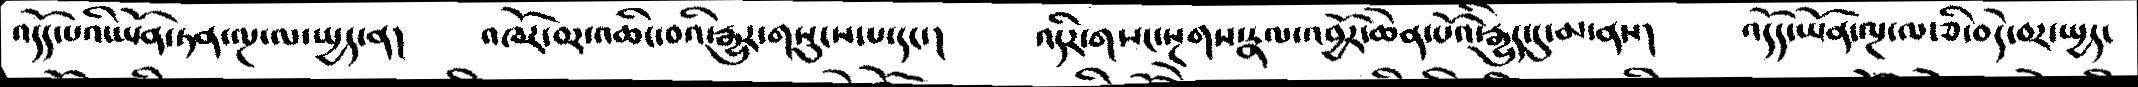འདོད་པའི་ཡོན་ཏན་ལྔ་ལ་སྤྱད་ན།   འཁོར་བར་འཆིང་བའི་རྒྱུར་གསུངས་པ་དང་།   འདིར་གསང་སྔགས་རྣལ་འབྱོར་ཆེན་པོའི་རྒྱུད་དུ་མ་ནས།   འདོད་ཡོན་ལྔ་ལ་ཅི་བདེ་བར་སྤྱད་
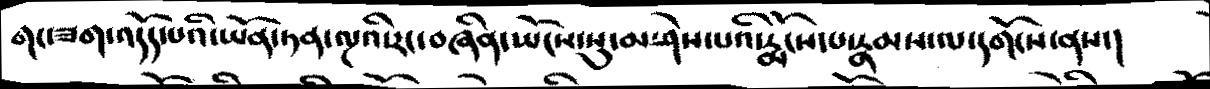གང་ཟག་འདོད་པའི་ཡོན་ཏན་ལྔའི་རང་བཞིན་ཡོངས་སུ་མ་ཤེས་པའི་རྨོངས་པ་རྣམས་ལ་དགོངས་ནས་།
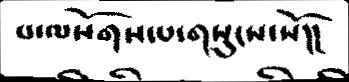པ་ལསོགས་པ་གསུངས་སོ།།
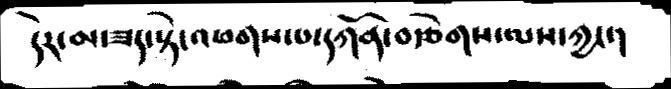དེར་མ་ཟད་སྟེ་འཕགས་པ་དཀོན་བརྩེགས་ལས་ཀྱང་།
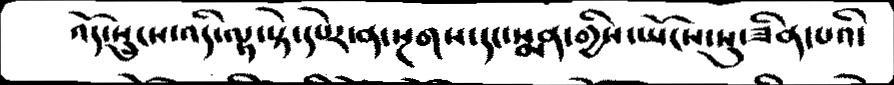འོད་སྲུངས་འདི་ལྟ་སྟེ་དཔེར་ན་སྔགས་དང་སྨན་གྱིས་ཡོངས་སུ་ཟིན་པའི་
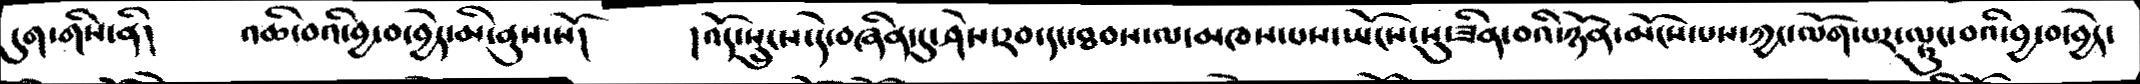དུག་གིས་ནི།   འཆི་བའི་བྱ་བ་བྱེད་མི་ནུས་སོ།   །འོད་སྲུངས་དེ་བཞིན་དུ་ཤེས་རབ་དང་ཐབས་ལ་མཁས་པས་ཡོངས་སུ་ཟིན་བའི་ཉོན་མོངས་པས་ཀྱང་ལོག་པར་ལྟུང་བའི་བྱ་བ་བྱེད་
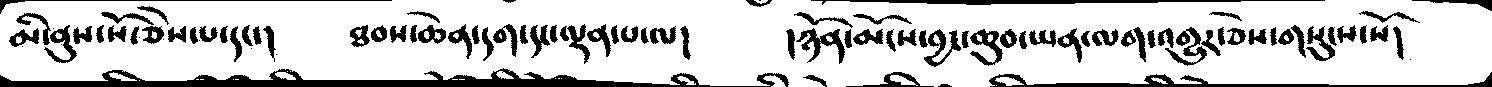མི་ནུས་སོ་ཅེས་པ་དང་།   ཐབས་ཆེན་དག་དང་ལྡན་པ་ལ།   །ཉོན་མོངས་བྱང་ཆུབ་ཡན་ལག་འགྱུར་ཅེས་གསུངས་སོ།
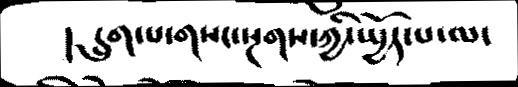།དྲུག་པ་གསང་སྔགས་ཀྱི་སྤྱོད་པ་ལ་
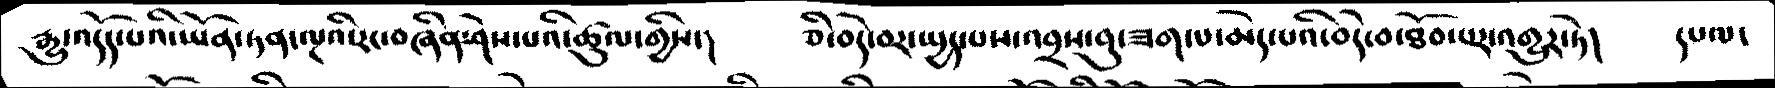རྒྱུ་འདོད་པའི་ཡོན་ཏན་ལྔའི་རང་བཞིན་ཤེས་པའི་ཚུལ་གྱིས་།  ཅི་བདེ་བར་སྤྱད་པས་འབྲས་བུ་ཟག་པ་མེད་པའི་བདེ་བ་ཐོབ་པར་འགྱུར་ཏེ།  དཔལ་
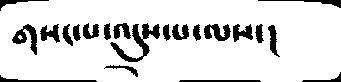གསང་པ་འདུས་པ་ལས་།
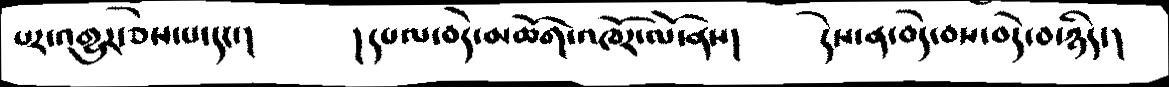པར་འགྱུར་ཅེས་པ་དང་།  །དཔལ་བདེ་མཆོག་འཁོར་ལོ་ནས།   དེས་ན་བདེ་བས་བདེ་བ་ཉིད་།
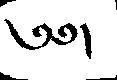༄༅།
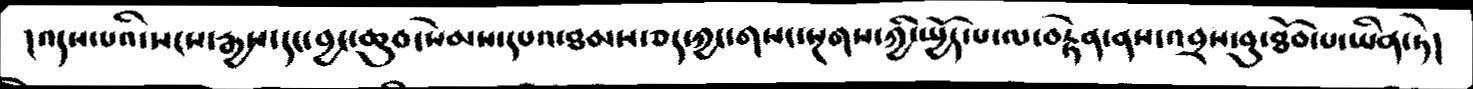།འདས་པའི་སངས་རྒྱས་དང་བྱང་ཆུབ་སེམས་དཔའ་ཐམས་ཅད་ཀྱང་གསང་སྔགས་ཀྱི་སྤྱོད་པ་ལ་བརྟེན་ནས་འབྲས་བུ་ཐོབ་པ་ཡིན་ཏེ།
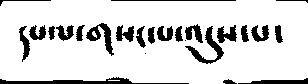དཔལ་གསང་པ་འདུས་པ་
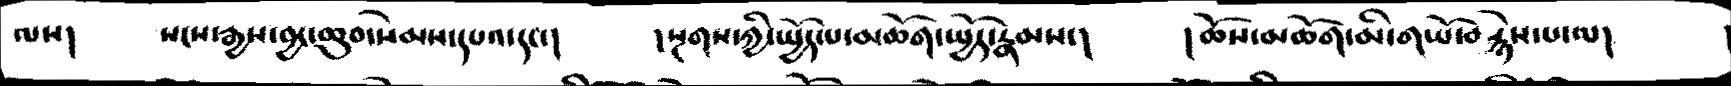ལས།   སངས་རྒྱས་བྱང་ཆུབ་སེམས་དཔའ་དང་།   །སྔགས་ཀྱི་སྤྱོད་པ་མཆོག་སྤྱོད་རྣམས་།   །ཆོས་མཆོག་མི་གཡོ་བརྙེས་པ་ལ།
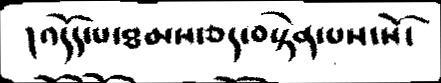།འདོད་པ་ཐམས་ཅད་བསྟེན་པས་སོ་
